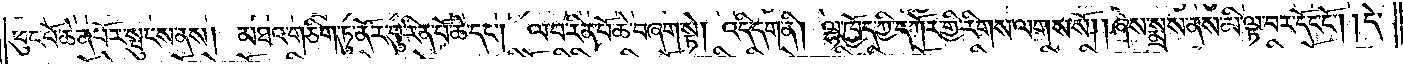ཕུང་པོ་ཆེན་པོར་སྤུངས་ནས། མཐའ་གཅིག་ཏུ་ནོར་བུ་རིན་པོ་ཆེ་དང༌། ལ་བ་རིན་པོ་ཆེ་བཞག་སྟེ། འདི་དག་ནི། ལྷ་ཁྱོད་ཀྱི་དཀོར་གྱི་རིགས་ལགས་སོ། །ཞེས་སྨྲས་ནས་མི་ལྟ་བར་དོང་ངོ༌། །དེ་
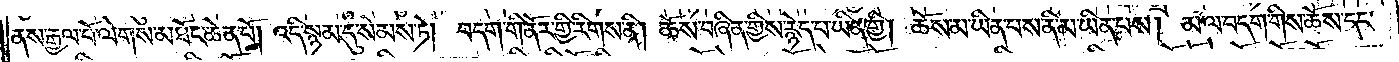ནས་རྒྱལ་པོ་ལེགས་མཐོང་ཆེན་པོ། འདི་སྙམ་དུ་སེམས་ཏེ། བདག་གི་ནོར་གྱི་རིགས་ནི། ཆོས་བཞིན་གྱིས་རྙེད་པ་ཡིན་གྱི། ཆོས་མ་ཡིན་པས་ནི་མ་ཡིན་པས། མ་ལ་བདག་གིས་ཆོས་དང་
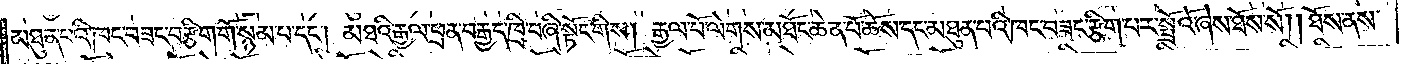མཐུན་པའི་ཁང་བཟང་བརྩིག་གོ་སྙམ་པ་དང༌། མཐའི་རྒྱལ་ཕྲན་བརྒྱད་ཁྲི་བཞི་སྟོང་གིས། རྒྱལ་པོ་ལེགས་མཐོང་ཆེན་པོ་ཆོས་དང་མཐུན་པའི་ཁང་བཟང་རྩིག་པར་སྤྲོའོ་ཞེས་ཐོས་སོ། །ཐོས་ནས་
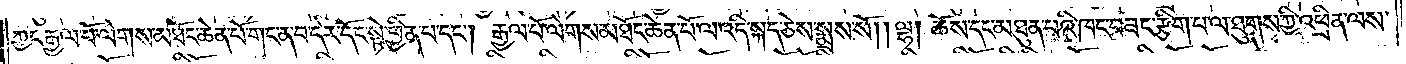ཀྱང་རྒྱལ་པོ་ལེགས་མཐོང་ཆེན་པོ་གང་ན་བ་དེར་དོང་སྟེ་ཕྱིན་པ་དང༌། རྒྱལ་པོ་ལེགས་མཐོང་ཆེན་པོ་ལ་འདི་སྐད་ཅེས་སྨྲས་སོ། །ལྷ། ཆོས་དང་མཐུན་པའི་ཁང་བཟང་རྩིག་པ་ལ་ཐུགས་ཀྱི་འཕྲིན་ལས་
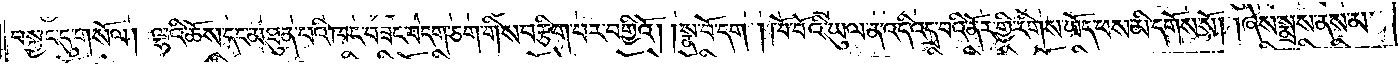བསྐྱང་དུ་གསོལ། ལྷའི་ཆོས་དང་མཐུན་པའི་ཁང་བཟང་བདག་ཅག་གིས་བརྩིག་པར་བགྱིའོ། །སྣ་བོ་དག །ཁོ་བོའི་ཡུལ་ན་འདི་འདྲ་བའི་ནོར་གྱི་རིགས་ཡོད་པས་མི་དགོས་སོ། །ཞེས་སྨྲས་ནས་མ་
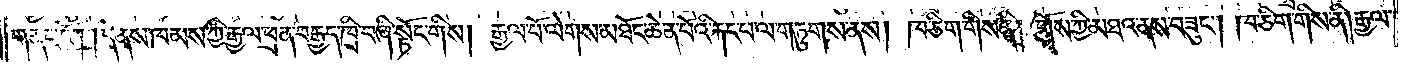གནང་ངོ༌། །དེ་ནས་ཁམས་ཀྱི་རྒྱལ་ཕྲན་བརྒྱད་ཁྲི་བཞི་སྟོང་གིས། རྒྱལ་པོ་ལེགས་མཐོང་ཆེན་པོའི་རྐང་པ་ལ་གཏུགས་ནས། ཁ་ཅིག་གིས་ནི། གོས་ཀྱི་མཐའ་ནས་བཟུང༌། ཁ་ཅིག་གིས་ནི། རྒྱལ་
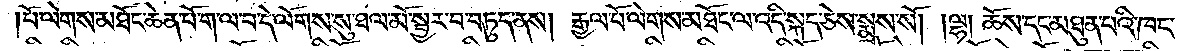།པོ་ལེགས་མཐོང་ཆེན་པོ་ག་ལ་བ་དེ་ལོགས་སུ་ཐལ་མོ་སྦྱར་བ་བཏུད་ནས། རྒྱལ་པོ་ལེགས་མཐོང་ལ་འདི་སྐད་ཅེས་སྨྲས་སོ། །ལྷ། ཆོས་དང་མཐུན་པའི་ཁང་
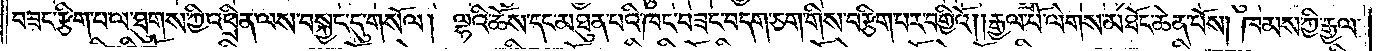བཟང་རྩིག་པ་ལ་ཐུགས་ཀྱི་འཕྲིན་ལས་བསྐྱང་དུ་གསོལ། ལྷའི་ཆོས་དང་མཐུན་པའི་ཁང་བཟང་བདག་ཅག་གིས་བརྩིག་པར་བགྱིའོ། །རྒྱལ་པོ་ལེགས་མཐོང་ཆེན་པོས། ཁམས་ཀྱི་རྒྱལ་
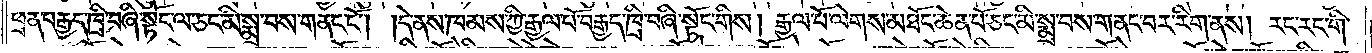ཕྲན་བརྒྱད་ཁྲི་བཞི་སྟོང་ལ་ཅང་མི་སྨྲ་བས་གནང་ངོ༌། །དེ་ནས་ཁམས་ཀྱི་རྒྱལ་པོ་བརྒྱད་ཁྲི་བཞི་སྟོང་གིས། རྒྱལ་པོ་ལེགས་མཐོང་ཆེན་པོ་ཅང་མི་སྨྲ་བས་གནང་བར་རིག་ནས། རང་རང་གི་
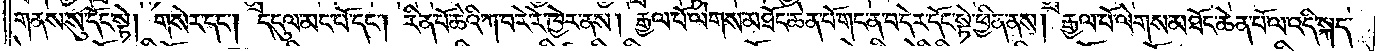གནས་སུ་དོང་སྟེ། གསེར་དང༌། དངུལ་མང་པོ་དང༌། རིན་པོ་ཆེའི་ཀ་བ་རེ་རེ་ཁྱེར་ནས། རྒྱལ་པོ་ལེགས་མཐོང་ཆེན་པོ་གང་ན་བ་དེར་དོང་སྟེ་ཕྱིན་ནས། རྒྱལ་པོ་ལེགས་མཐོང་ཆེན་པོ་ལ་འདི་སྐད་
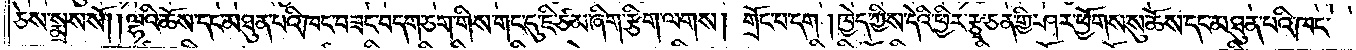ཅེས་སྨྲས་སོ། །ལྷའི་ཆོས་དང་མཐུན་པའི་ཁང་བཟང་བདག་ཅག་གིས་གང་དུ་ཇི་ཙམ་ཞིག་རྩིག་ལགས། གྲོང་པ་དག །ཁྱེད་ཀྱིས་དེའི་ཕྱིར་རྩྭ་ཅན་གྱི་ཤར་ཕྱོགས་སུ་ཆོས་དང་མཐུན་པའི་ཁང་
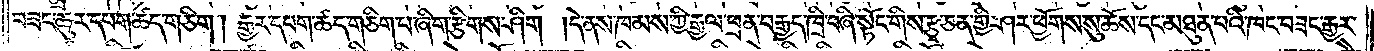བཟང་ཆུར་དཔག་ཚད་གཅིག། རྒྱར་དཔག་ཚད་གཅིག་པ་ཞིག་རྩིགས་ཤིག །དེ་ནས་ཁམས་ཀྱི་རྒྱལ་ཕྲན་བརྒྱད་ཁྲི་བཞི་སྟོང་གིས་རྩྭ་ཅན་གྱི་ཤར་ཕྱོགས་སུ་ཆོས་དང་མཐུན་པའི་ཁང་བཟང་རྒྱར་
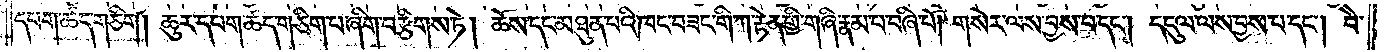དཔག་ཚད་གཅིག། ཆུར་དཔག་ཚད་གཅིག་པ་ཞིག་བརྩིགས་ཏེ། ཆོས་དང་མཐུན་པའི་ཁང་བཟང་གི་ཀ་རྟེན་གྱི་གཞི་རྣམ་པ་བཞི་པོ། གསེར་ལས་བྱས་པ་དང༌། དངུལ་ལས་བྱས་པ་དང༌། བཻ་
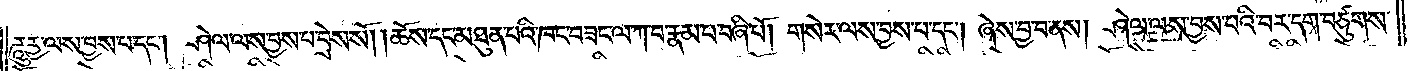ཌཱུརྱ་ལས་བྱས་པ་དང༌། ཤེལ་ལས་བྱས་པ་བྲེས་སོ། །ཆོས་དང་མཐུན་པའི་ཁང་བཟང་ལ་ཀ་བ་རྣམ་པ་བཞི་པོ། །གསེར་ལས་བྱས་པ་དང༌། ཞེས་བྱ་བ་ནས། ཤེལ་ལས་བྱས་པའི་བར་དག་བཙུགས་
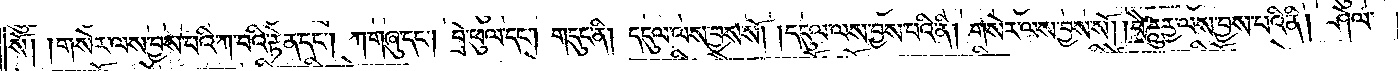སོ། །གསེར་ལས་བྱས་པའི་ཀ་བའི་རྟེན་དང༌། ཀ་གཞུ་དང༌། བྲེ་ཕུལ་དང༌། གདུང་ནི། དངུལ་ལས་བྱས་སོ། །དངུལ་ལས་བྱས་པའི་ནི། གསེར་ལས་བྱས་སོ། །བཻ་ཌཱུརྱ་ལས་བྱས་པའི་ནི། ཤེལ་
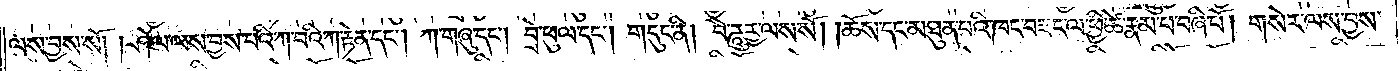ལས་བྱས་སོ། །ཤེལ་ལས་བྱས་པའི་ཀ་བའི་ཀ་རྟེན་དང༌། ཀ་གཞུ་དང༌། བྲེ་ཕུལ་དང༌། གདུང་ནི། བཻ་ཌཱུརྱ་ལས་སོ། །ཆོས་དང་མཐུན་པའི་ཁང་བཟང་ལ་ཕྱི་ཚེ་རྣམ་པ་བཞི་པོ། གསེར་ལས་བྱས་
